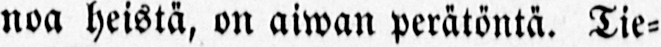noa heistä, on aiwan perätöntä. Tie-
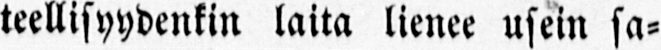teellisyydenkin laita lienee usein sa-
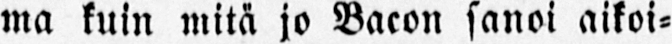ma kuin mitä jo Bacon sanoi aikoi-
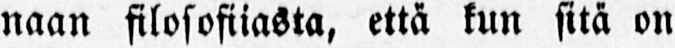naan filosofiiasta, että kun sitä on
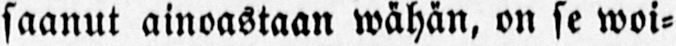saanut ainoastaan wähän, on se woi-
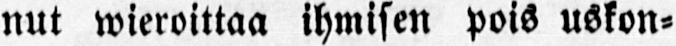nut wieroittaa ihmisen pois uskon-
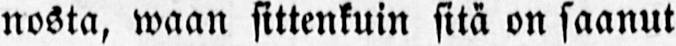nosta, waan sittenkuin sitä on saanut
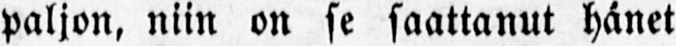paljon, niin on se saattanut hänet
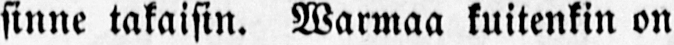sinne takaisin. Warmaa kuitenkin on
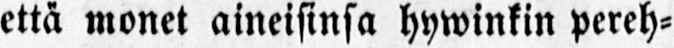että monet aineisinsa hywinkin pereh-
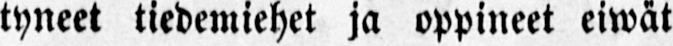tyneet tiedemiehet ja oppineet eiwät
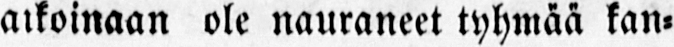aikoinaan ole nauraneet tyhmää kan-
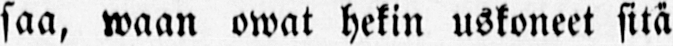saa, waan owat hekin uskoneet sitä
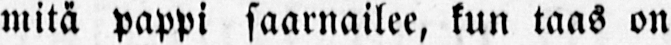mitä pappi saarnailee, kun taas on
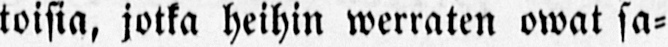toisia, jotka heihin werraten owat sa-
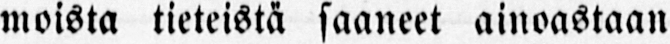moista tieteistä saaneet ainoastaan
